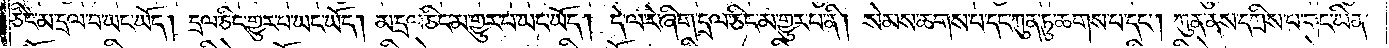ཅིང་མ་དྲལ་བ་ཡང་ཡོད། དྲལ་ཅིང་གྱུར་པ་ཡང་ཡོད། མ་དྲལ་ཅིང་མ་གྱུར་པ་ཡང་ཡོད། དེ་ལ་རེ་ཞིག་དྲལ་ཅིང་མ་གྱུར་པ་ནི། སེམས་ཆགས་པ་དང་ཀུན་ཏུ་ཆགས་པ་དང༌། ཀུན་ནས་དཀྲིས་པ་གང་ཡིན་
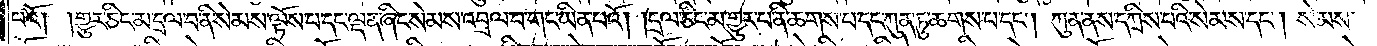པའོ། །གྱུར་ཅིང་མ་དྲལ་བ་ནི་སེམས་ལྟོས་པ་དང་ལྡན་ཞིང་སེམས་འབྲལ་བ་གང་ཡིན་པའོ། །དྲལ་ཅིང་མ་གྱུར་པ་ནི་ཆགས་པ་དང་ཀུན་ཏུ་ཆགས་པ་དང༌། ཀུན་ནས་དཀྲིས་པའི་སེམས་དང༌། སེམས་
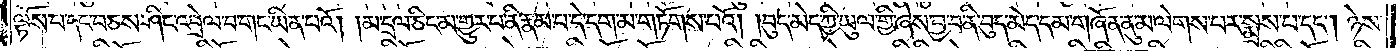ལྟོས་པ་དང་བཅས་ཤིང་འབྲེལ་བ་གང་ཡིན་པའོ། །མ་དྲལ་ཅིང་མ་གྱུར་པ་ནི་རྣམ་པ་དེ་དག་མ་གཏོགས་པའོ། །བུད་མེད་ཀྱི་ཡུལ་གྱི་ཞེས་བྱ་བ་ནི་བུད་མེད་དམ་གཞོན་ནུ་མ་ལེགས་པར་སྨྲས་པ་དང༌། ཉེས་
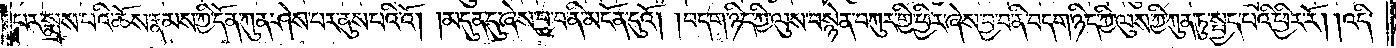པར་སྨྲས་པའི་ཆོས་རྣམས་ཀྱི་དོན་ཀུན་ཤེས་པར་ནུས་པའི་འོ། །མདུན་དུ་ཞེས་བྱ་བ་ནི་མངོན་དུའོ། །བདག་ཉིད་ཀྱི་ལུས་བསྙེན་བཀུར་གྱི་ཕྱིར་ཞེས་བྱ་བ་ནི་བདག་ཉིད་ཀྱི་ལུས་ཀྱི་ཀུན་ཏུ་སྤྱད་པའི་ཕྱིར་རོ། །འདི་
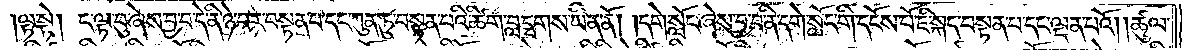།ལྟ་སྟེ། ང་ལྟ་བུ་ཞེས་བྱ་བ་དེ་ནི་ཉེ་བར་བསྟན་པ་དང་ཀུན་ཏུ་བསྟན་པའི་ཚིག་བླ་དྭགས་ཡིན་ནོ། །དགེ་སློང་ཞེས་བྱ་བ་ནི་དགེ་སློང་གི་དངོས་པོ་ཇི་སྐད་བསྟན་པ་དང་ལྡན་པའོ། །ཚུལ་
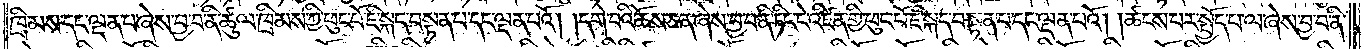ཁྲིམས་དང་ལྡན་པ་ཞེས་བྱ་བ་ནི་ཚུལ་ཁྲིམས་ཀྱི་ཕུང་པོ་ཇི་སྐད་བསྟན་པ་དང་ལྡན་པའོ། །དགེ་བའི་ཆོས་ཅན་ཞེས་བྱ་བ་ནི་ཏིང་ངེ་འཛིན་གྱི་ཕུང་པོ་ཇི་སྐད་བསྟན་པ་དང་ལྡན་པའོ། །ཚངས་པར་སྤྱོད་པ་ལ་ཞེས་བྱ་བ་ནི་
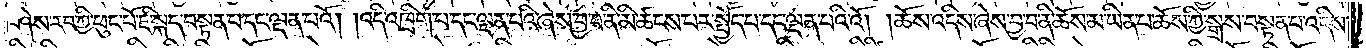ཤེས་རབ་ཀྱི་ཕུང་པོ་ཇི་སྐད་བསྟན་པ་དང་ལྡན་པའོ། །འདི་འཁྲིག་པ་དང་ལྡན་པའི་ཞེས་བྱ་བ་ནི་མི་ཚངས་པར་སྤྱོད་པ་དང་ལྡན་པའིའོ། །ཆོས་འདིས་ཞེས་བྱ་བ་ནི་ཆོས་མ་ཡིན་པ་ཆོས་ཀྱི་སྒྲས་བསྟན་པ་འདིས་
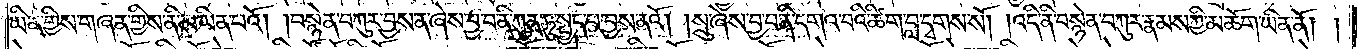ཡིན་གྱིས་གཞན་གྱིས་ནི་མ་ཡིན་པའོ། །བསྙེན་བཀུར་བྱས་ན་ཞེས་བྱ་བ་ནི་ཀུན་ཏུ་སྤྱད་པ་བྱས་ནའོ། །སྲུ་ཞེས་བྱ་བ་ནི་དགའ་བའི་ཚིག་བླ་དྭགས་སོ། །འདི་ནི་བསྙེན་བཀུར་རྣམས་ཀྱི་མཆོག་ཡིན་ནོ། །
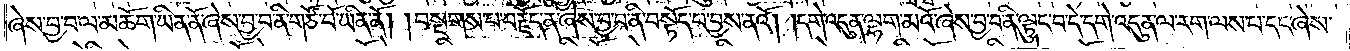ཞེས་བྱ་བ་ལ་མཆོག་ཡིན་ནོ་ཞེས་བྱ་བ་ནི་གཙོ་བོ་ཡིན་ནོ། །བསྔགས་པ་བརྗོད་ན་ཞེས་བྱ་བ་ནི་བསྟོད་པ་བྱས་ནའོ། །དགེ་འདུན་ལྷག་མའོ་ཞེས་བྱ་བ་ནི་ལྟུང་བ་དེ་དགེ་འདུན་ལ་རག་ལས་པ་དང་ཞེས་
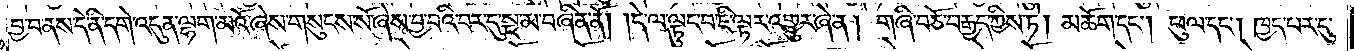བྱ་བ་ནས་དེ་ནི་དགེ་འདུན་ལྷག་མའོ་ཞེས་གསུངས་སོ་ཞེས་བྱ་བའི་བར་དུ་སྔ་མ་བཞིན་ནོ། །དེ་ལ་ལྟུང་བ་ཇི་ལྟར་འགྱུར་ཞེ་ན། གཞི་བཅོ་བརྒྱད་ཀྱིས་ཏེ། མཆོག་དང༌། ཕུལ་དང༌། ཁྱད་པར་དུ་
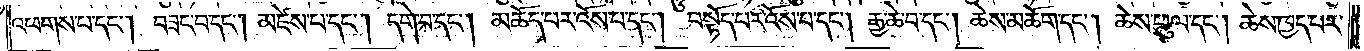འཕགས་པ་དང༌། བཟང་བ་དང༌། མཛེས་པ་དང༌། དགེ་བ་དང༌། མཆོད་པར་འོས་པ་དང༌། བསྟོད་པར་འོས་པ་དང༌། རྒྱ་ཆེ་བ་དང༌། ཆེས་མཆོག་དང༌། ཆེས་ཕུལ་དང༌། ཆེས་ཁྱད་པར་
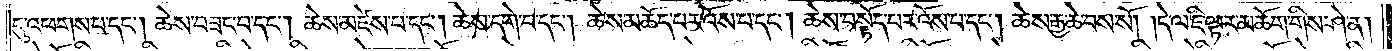དུ་འཕགས་པ་དང༌། ཆེས་བཟང་བ་དང༌། ཆེས་མཛེས་པ་དང༌། ཆེས་དགེ་བ་དང༌། ཆེས་མཆོད་པར་འོས་པ་དང༌། ཆེས་བསྟོད་པར་འོས་པ་དང༌། ཆེས་རྒྱ་ཆེ་བས་སོ། །དེ་ལ་ཇི་ལྟར་མཆོག་གིས་ཤེ་ན།
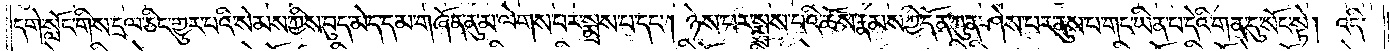དགེ་སློང་གིས་དྲལ་ཅིང་གྱུར་པའི་སེམས་ཀྱིས་བུད་མེད་དམ་གཞོན་ནུ་མ་ལེགས་པར་སྨྲས་པ་དང༌། ཉེས་པར་སྨྲས་པའི་ཆོས་རྣམས་ཀྱི་དོན་ཀུན་ཤེས་པར་ནུས་པ་གང་ཡིན་པ་དེའི་གན་དུ་སོང་སྟེ། འདི་
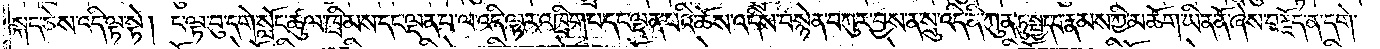སྐད་ཅེས་འདི་ལྟ་སྟེ། ང་ལྟ་བུ་དགེ་སློང་ཚུལ་ཁྲིམས་དང་ལྡན་པ་ལ་འདི་ལྟར་འཁྲིག་པ་དང་ལྡན་པའི་ཆོས་འདིས་བསྙེན་བཀུར་བྱས་ན་སྲུ་འདི་ནི་ཀུན་ཏུ་སྤྱད་པ་རྣམས་ཀྱི་མཆོག་ཡིན་ནོ་ཞེས་བརྗོད་ན་དགེ་
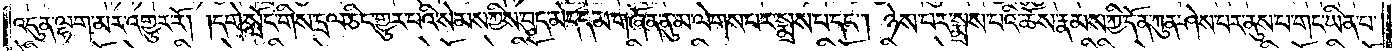འདུན་ལྷག་མར་འགྱུར་རོ། །དགེ་སློང་གིས་དྲལ་ཅིང་གྱུར་པའི་སེམས་ཀྱིས་བུད་མེད་དམ་གཞོན་ནུ་མ་ལེགས་པར་སྨྲས་པ་དང༌། ཉེས་པར་སྨྲས་པའི་ཆོས་རྣམས་ཀྱི་དོན་ཀུན་ཤེས་པར་ནུས་པ་གང་ཡིན་པ་
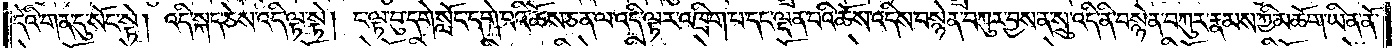དེའི་གན་དུ་སོང་སྟེ། འདི་སྐད་ཅེས་འདི་ལྟ་སྟེ། ང་ལྟ་བུ་དགེ་སློང་དགེ་བའི་ཆོས་ཅན་ལ་འདི་ལྟར་འཁྲིག་པ་དང་ལྡན་པའི་ཆོས་འདིས་བསྙེན་བཀུར་བྱས་ན་སྲུ་འདི་ནི་བསྙེན་བཀུར་རྣམས་ཀྱི་མཆོག་ཡིན་ནོ་
